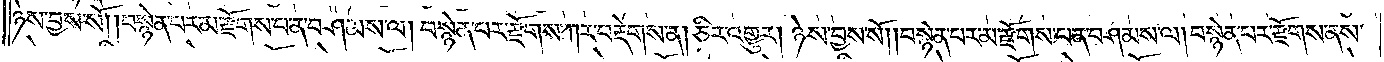ཉེས་བྱས་སོ། །བསྙེན་པར་མ་རྫོགས་པ་ན་བཤམས་ལ། བསྙེན་པར་རྫོགས་ཀར་བརྡེགས་ན། ཅིར་འགྱུར། ཉེས་བྱས་སོ། །བསྙེན་པར་མ་རྫོགས་པ་ན་བཤམས་ལ། བསྙེན་པར་རྫོགས་ནས་
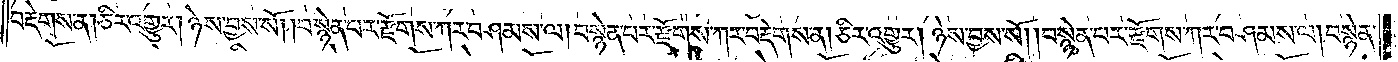བརྡེགས་ན། ཅིར་འགྱུར། ཉེས་བྱས་སོ། །བསྙེན་པར་རྫོགས་ཀར་བཤམས་ལ། བསྙེན་པར་རྫོགས་ཀར་བརྡེགས་ན། ཅིར་འགྱུར། ཉེས་བྱས་སོ། །བསྙེན་པར་རྫོགས་ཀར་བཤམས་ལ། བསྙེན་
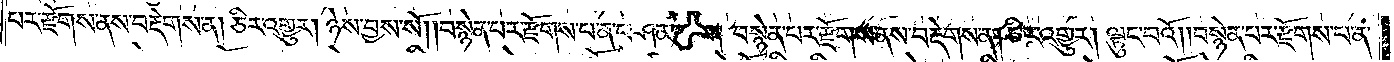པར་རྫོགས་ནས་བརྡེགས་ན། ཅིར་འགྱུར། ཉེས་བྱས་སོ། །བསྙེན་པར་རྫོགས་པ་ན་བཤམས་པ། བསྙེན་པར་རྫོགས་ནས་བརྡེགས་ན། ཅིར་འགྱུར། ལྟུང་བའོ། །བསྙེན་པར་རྫོགས་པ་ན་
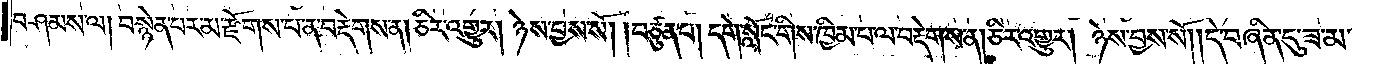བཤམས་ལ། བསྙེན་པར་མ་རྫོགས་པ་ན་བརྡེགས་ན། ཅིར་འགྱུར། ཉེས་བྱས་སོ། །བཙུན་པ། དགེ་སློང་གིས་ཁྱིམ་པ་ལ་བརྡེགས་ན། ཅིར་འགྱུར། ཉེས་བྱས་སོ། །དེ་བཞིན་དུ་ཟ་མ་
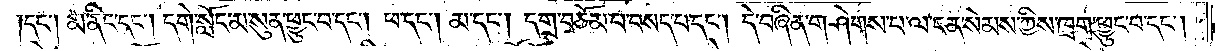དང༌། མ་ནིང་དང༌། དགེ་སློང་མ་སུན་ཕྱུང་བ་དང༌། ཕ་དང༌། མ་དང༌། དགྲ་བཅོམ་པ་བསད་པ་དང༌། དེ་བཞིན་གཤེགས་པ་ལ་ངན་སེམས་ཀྱིས་ཁྲག་ཕྱུང་བ་དང༌།
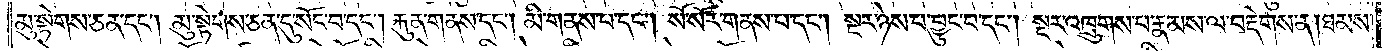མུ་སྟེགས་ཅན་དང༌། མུ་སྟེགས་ཅན་དུ་སོང་བ་དང༌། རྐུན་གནས་དང༌། མི་གནས་པ་དང༌། སོ་སོར་གནས་པ་དང༌། སྔར་ཉེས་པ་བྱུང་བ་དང༌། སྔར་འཁྲུགས་པ་རྣམས་ལ་བརྡེགས་ན། ཐམས་
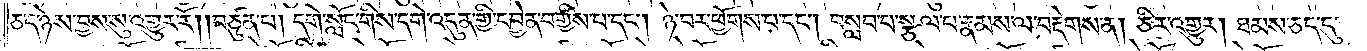ཅད་ཉེས་བྱས་སུ་འགྱུར་རོ། །བཙུན་པ། དགེ་སློང་གིས་དགེ་འདུན་གྱི་དབྱེན་བགྱིས་པ་དང༌། ཉེ་བར་ཕྱོགས་པ་དང༌། བསླབ་པ་སྩལ་པ་རྣམས་ལ་བརྡེགས་ན། ཅིར་འགྱུར། ཐམས་ཅད་དུ་
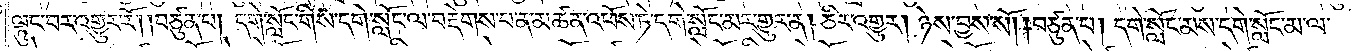ལྟུང་བར་འགྱུར་རོ། །བཙུན་པ། དགེ་སློང་གིས་དགེ་སློང་ལ་བརྡེགས་པ་ན་མཚན་འཕོས་ཏེ་དགེ་སློང་མར་གྱུར་ན། ཅིར་འགྱུར། ཉེས་བྱས་སོ། །བཙུན་པ། དགེ་སློང་མས་དགེ་སློང་མ་ལ་
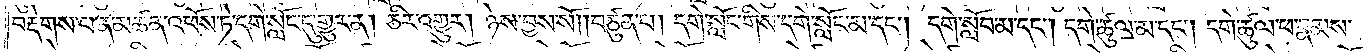བརྡེགས་པ་ན་མཚན་འཕོས་ཏེ་དགེ་སློང་དུ་གྱུར་ན། ཅིར་འགྱུར། ཉེས་བྱས་སོ། །བཙུན་པ། དགེ་སློང་གིས་དགེ་སློང་མ་དང༌། དགེ་སློབ་མ་དང༌། དགེ་ཚུལ་མ་དང༌། དགེ་ཚུལ་ཕ་རྣམས་
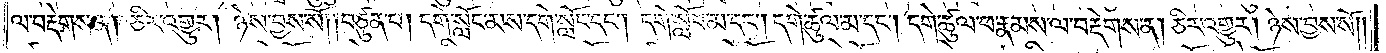ལ་བརྡེགས་ན། ཅིར་འགྱུར། ཉེས་བྱས་སོ། །བཙུན་པ། དགེ་སློང་མས་དགེ་སློང་དང༌། དགེ་སློབ་མ་དང༌། དགེ་ཚུལ་མ་དང༌། དགེ་ཚུལ་ཕ་རྣམས་ལ་བརྡེགས་ན། ཅིར་འགྱུར། ཉེས་བྱས་སོ། །
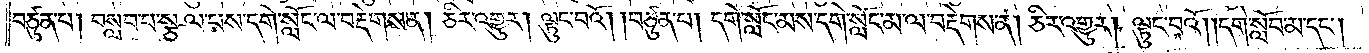བཙུན་པ། བསླབ་པ་སྩལ་པས་དགེ་སློང་ལ་བརྡེགས་ན། ཅིར་འགྱུར། ལྟུང་བའོ། །བཙུན་པ། དགེ་སློང་མས་དགེ་སློང་མ་ལ་བརྡེགས་ན། ཅིར་འགྱུར། ལྟུང་བའོ། །དགེ་སློབ་མ་དང༌།
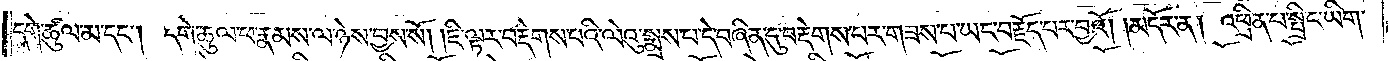དགེ་ཚུལ་མ་དང༌། དགེ་ཚུལ་ཕ་རྣམས་ལ་ཉེས་བྱས་སོ། །ཇི་ལྟར་བརྡེགས་པའི་ལེའུ་སྨྲས་པ་དེ་བཞིན་དུ་བརྡེགས་པར་གཟས་པ་ཡང་བརྗོད་པར་བྱའོ།    །མདོར་ན། འཕྲིན་པ་སྤྲིང་ཡིག་
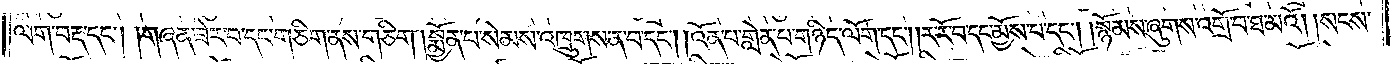ལག་བརྡ་དང༌། །གཞན་ཟེར་བ་དང་གཅིག་ནས་གཅིག །སྨྱོན་པ་སེམས་འཁྲུགས་ན་བ་དང༌། །འོན་པ་གླེན་པ་གཉིད་ལོག་དང༌། །ར་རོ་བ་དང་མྱོས་པ་དང༌། །སྙོམས་ཞུགས་འགྲོ་བ་ཐ་མའོ། །སངས་
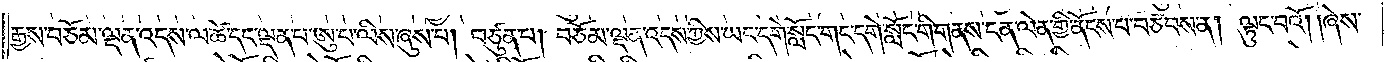རྒྱས་བཅོམ་ལྡན་འདས་ལ་ཚེ་དང་ལྡན་པ་ཨུ་པ་ལིས་ཞུས་པ། བཙུན་པ། བཅོམ་ལྡན་འདས་ཀྱིས་ཡང་དགེ་སློང་གང་དགེ་སློང་གི་གནས་ངན་ལེན་གྱི་ནོངས་པ་བཅབས་ན། ལྟུང་བའོ། །ཞེས་
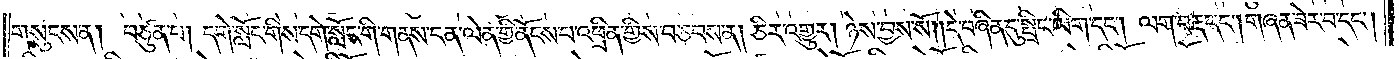གསུངས་ན། བཙུན་པ། དགེ་སློང་གིས་དགེ་སློང་གི་གནས་ངན་ལེན་གྱི་ནོངས་པ་འཕྲིན་གྱིས་བཅབས་ན། ཅིར་འགྱུར། ཉེས་བྱས་སོ། །དེ་བཞིན་དུ་སྤྲིང་ཡིག་དང༌། ལག་བརྡ་དང༌། གཞན་ཟེར་བ་དང༌།
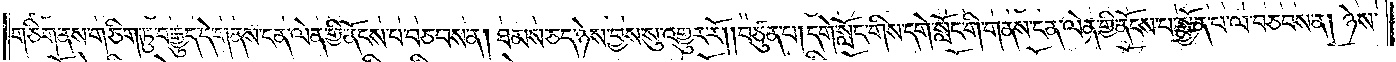གཅིག་ནས་གཅིག་ཏུ་བརྒྱུད་དེ་གནས་ངན་ལེན་གྱི་ནོངས་པ་བཅབས་ན། ཐམས་ཅད་ཉེས་བྱས་སུ་འགྱུར་རོ། །བཙུན་པ། དགེ་སློང་གིས་དགེ་སློང་གི་གནས་ངན་ལེན་གྱི་ནོངས་པ་སྨྱོན་པ་ལ་བཅབས་ན། ཉེས་
